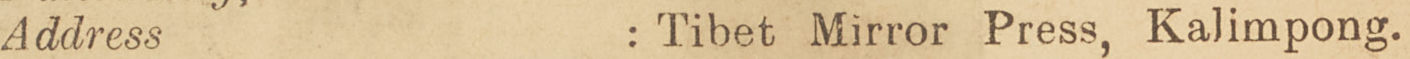Address :Tibet Mirror Press, Kalimpong.
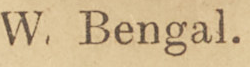W. Bengal.
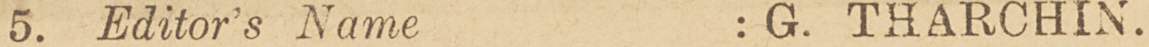5. Editor's Name : G. THARCHIN
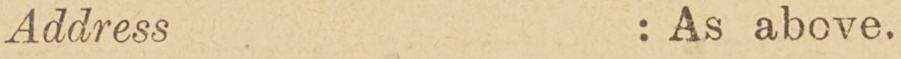Addess : As above
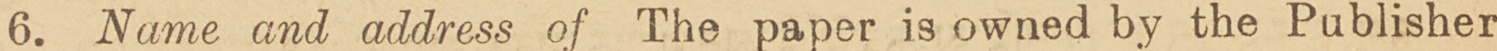6. Name and address of The paper is own by the Publisher
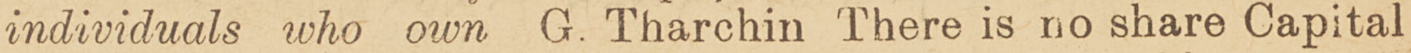individuals who own G. Tharchin, There is no share Capital
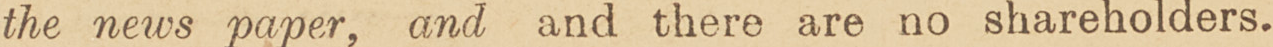the news paper, and and there are no shareholders.
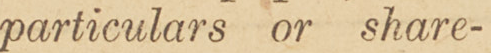perticulars or share-
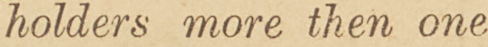holdere more than one
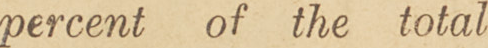percent of the total
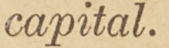capital.
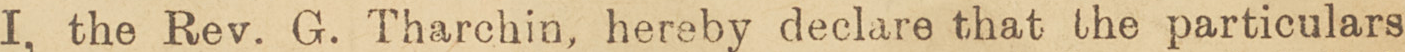I, the Rev. G. Tharchin hereby declare that the paticulars
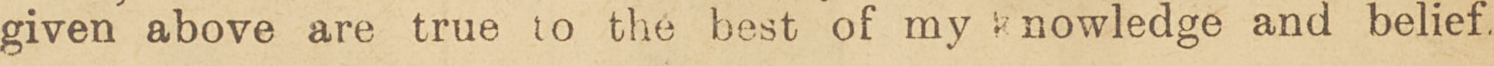given above are true to the best of my knowledge and belief
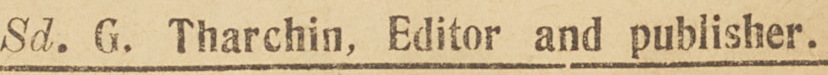sd. G. Tharchin, Editor and publisher.
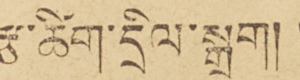རྩ་ཚིག་དྲིག་སྒྲག། །
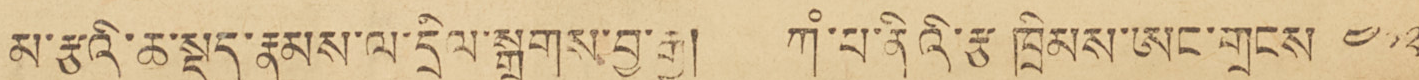མ་རྩའི་ཆ་སྡུད་རྣམས་ལ་དྲིལ་སྒྲགས་བྱ་རྒྱ། ཀཾ་པ་ནིའི་རྩ ཁྲིམས་ཨང་གྲངས་ ༤༡༢
